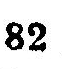82
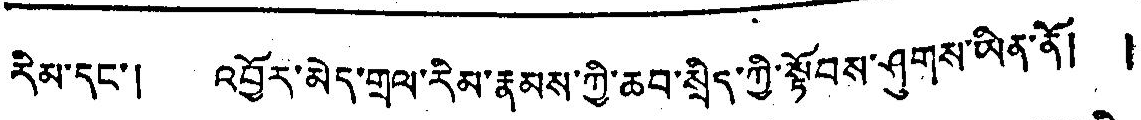རིམ་དང་། འབྱོར་མེད་གྲལ་རེམ་རྣམས་ཀྱི་ཆབ་སྲིད་ཀྱི་སྟོབས་ཤུགས་ཡིན་ནོ། །
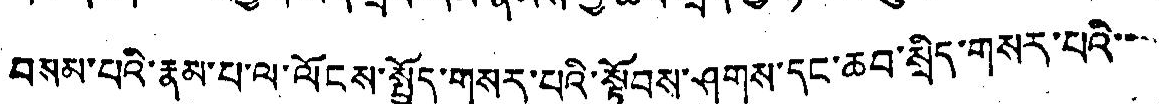བསམ་པའི་རྣམ་པ་ལ་ལོངས་སྤྱོད་གསར་པའི་སྟོབས་ཤུགས་དང་ཆེབ་སྲིད་གསར་བར་བེ་་་
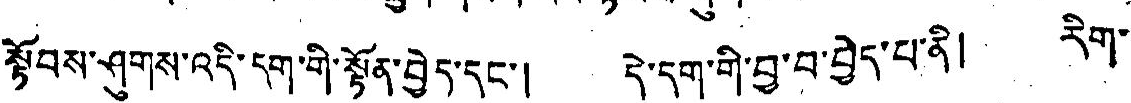སྟོབས་ཤུགས་འདི་དག་གི་སྟོན་བྱེད་དང་། དེ་དག་གི་བྱ་བ་བྱེད་པ་ནི། རིག་
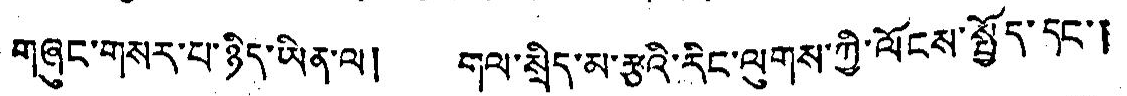གཞུང་གསར་པ་ཉིད་ཡིན་ལ། བལ་སྲིད་མ་རྩའི་རེང་ལུགས་ཀྱི་ལོངས་སྤྱོད་དང་།
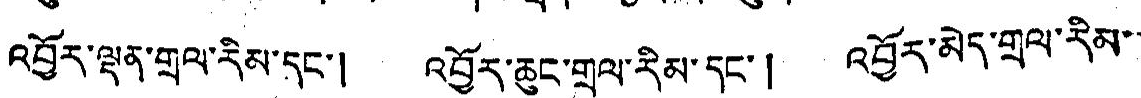འབྱོར་ལྡན་གྲལ་རིམ་དང་། འབྱོར་ཆུང་གྲལ་རིམ་དང་། འབྱོར་མེད་གྲིལ་རམ་་
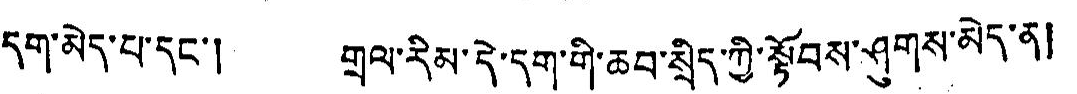དག་མེད་པ་དང་། གྲལ་རིམ་དེ་དག་གི་ཆབ་སྲིད་ཀྱི་སྟོབས་ཤུགས་མེད་ན།
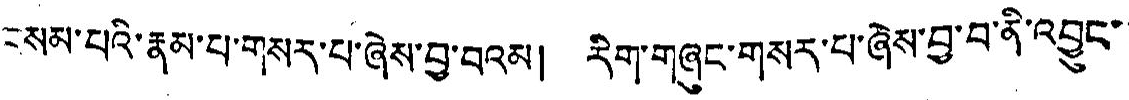བསམ་པའི་རྣམ་པ་གསར་པ་ཞེས་བྱ་བའམ། རིག་གཞུང་གསར་པ་ཞེས་བྱ་བནི་འབྱུང་
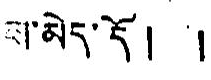ས་མེད་དོ། །
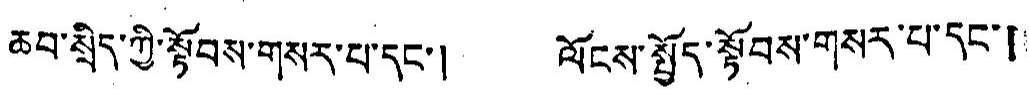ཆབ་སྲིད་ཀྱི་སྟོབས་གསར་པ་དང་། ལོངས་སྤྱོད་སྟོབས་གསར་བཔ་དང་།
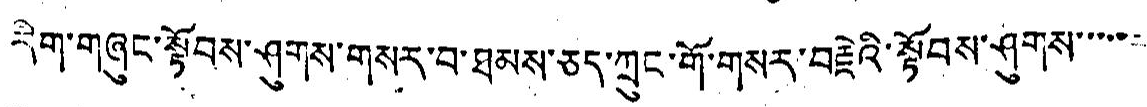རིག་གཞུང་སྟོབས་ཤུགས་གསར་བ་ཐམས་ཅད་ཀྲུང་གོ་གསར་བརྗེའི་སྟོབས་ཤིགས་་་་་་
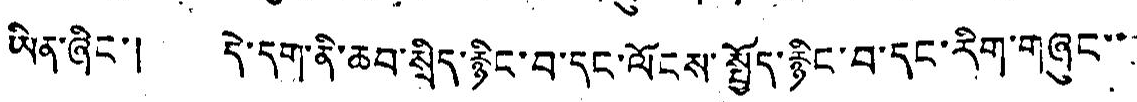ཡིན་ཞིང་། དེ་དག་ནི་ཆབ་སྲིད་རྙིང་བ་དང་ལོངས་སྤྱོད་རྙིང་བ་དང་རིག་གཞུང་་་
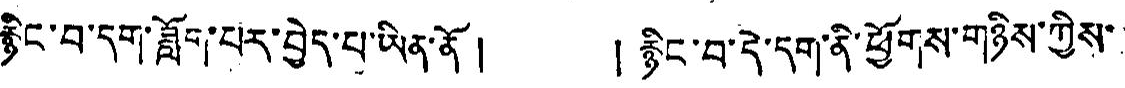རྙིང་བ་དག་ཟློག་པར་བྱེད་པ་ཡིན་ནོ ། ། རྙིང་བ་དེ་དག་ནི་ཕྱོགས་གཉིས་ཀྱིས་
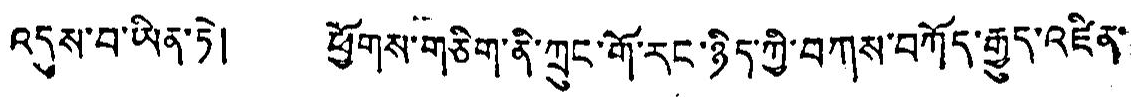འདུས་བ་ཡིན་ཏེ། ཕྱོགས་གཅིག་ནི་ཀྲུང་གོ་རང་ཉིད་ཀྱི་བཀས་བཀོད་རྒྱུད་འཛིན་
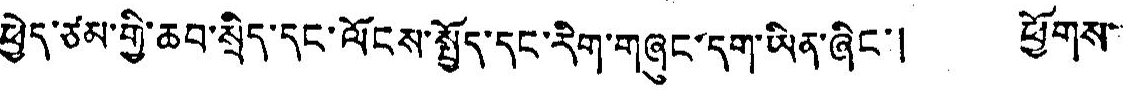ཕྱེད་ཙམ་གྱི་ཆབ་སྲིད་དང་ལོངས་སྤྱོད་དང་རིག་གཞུང་དག་ཡིན་ཞིང་། ཕྱོགས་
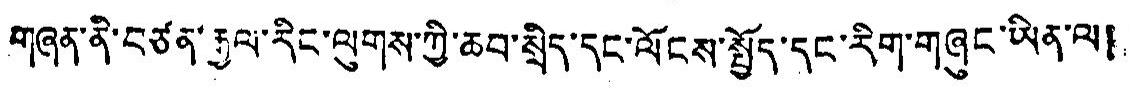གཞན་ནི་བཙན་རྒྱལ་རིང་ལུགས་ཀྱི་ཆབ་སྲིད་དང་ལོངས་སྤྱོད་དང་རིག་གཞུང་ཡིན་ལ།
